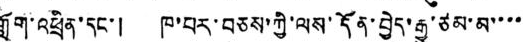གློག་འཕྲིན་དང་། ཁ་པར་བཅས་ཀྱི་ལས་དོན་བྱེད་རྒྱུ་ཙམ་མ་་་་
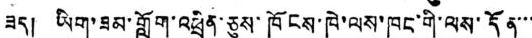ཟད། ཡིག་ཟམ་གློག་འཕྲིན་ཅུས་ཁོངས་ཁེ་ལས་ཁང་གི་ལས་དོན་་་
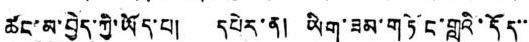ཚང་མ་བྱེད་ཀྱི་ཡོད་པ། དཔེར་ན། ཡིག་ཟམ་གཏོང་གླའི་དོད་་་
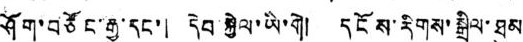ཤོག་བཙོང་རྒྱུ་དང་། དེབ་སྐྱེལ་ཡི་གེ། དངོས་རིགས་སྒྲིལ་ཐུམ།
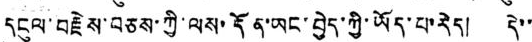དངུལ་བརྗེས་བཅས་ཀྱི་ལས་དོན་ཡང་བྱེད་ཀྱི་ཡོད་པ་རེད། དེ་་
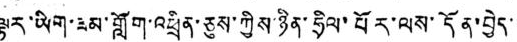ལྟར་ཡིག་ཟམ་གློག་འཕྲིན་ཅུས་ཀྱིས་ཉིན་ཧྲིལ་པོར་ལས་དོན་བྱེད་་
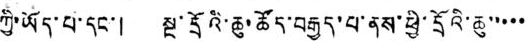ཀྱི་ཡོད་པ་དང་། སྔ་དྲོའི་ཆུ་ཚོད་བརྒྱད་པ་ནས་ཕྱི་དྲོའི་ཆུ་་་་་
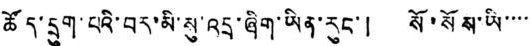ཚོད་དྲུག་པའི་བར་མི་སུ་འདྲ་ཞིག་ཡིན་རུང་། སོ་སོས་ཡི་་་་
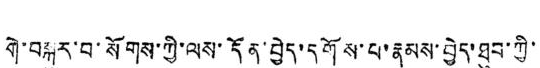གེ་བསྐུར་བ་སོགས་ཀྱི་ལས་དོན་བྱེད་དགོས་པ་རྣམས་བྱེད་ཐུབ་ཀྱི་
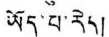ཡོད་པ་རེད།
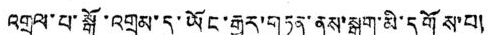འགྲུལ་པ་སྒོ་འགྲམ་དུ་ཡོང་རྒྱུར་གཏན་ནས་སྒུག་མི་དགོས་པ།
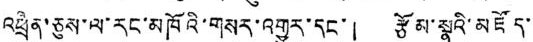འཕྲིན་ཅུས་ལ་རང་མཁོའི་གསར་འགྱུར་དང་། རྩོམ་སྣའི་མཛོད་
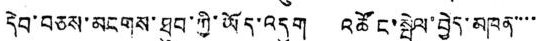དེབ་བཅས་མངགས་ཐུབ་ཀྱི་ཡོད་འདུག འཚོང་སྤེལ་བྱེད་མཁན་་་་
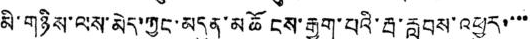མི་གཉིས་ལས་མེད་ཀྱང་མདུན་མཆོངས་རྒྱག་པའི་རྦ་རླབས་འཕྱུར་་་་
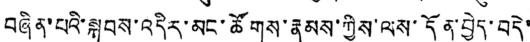བཞིན་པའི་སྐབས་འདིར་མང་ཚོགས་རྣམས་ཀྱིས་ལས་དོན་བྱེད་བདེ་
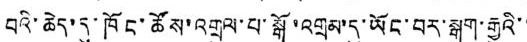བའི་ཆེད་དུ་ཁོང་ཚོས་འགྲུལ་པ་སྒོ་འགྲམ་དུ་ཡོང་བར་སྒུག་རྒྱུའི་་
